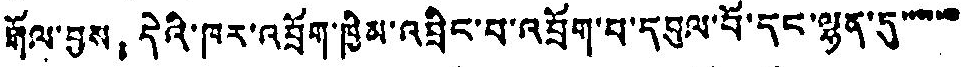རྒོལ་བྱས： དེའི་ཁར་འབྲོག་ཁྱིམ་འབྲིང་བ་འབྲོག་པ་དབུལ་བོ་དང་ལྷན་དུ་་་་་་་
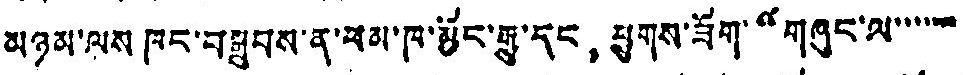མཉམ་ལས ཁང་བསྒྲུབས་ན་ཕམ་ཁ་མྱོང་རྒྱུ་དང， ཕྱུགས་ཟོག་“གཞུང་ལ་་་་་་་
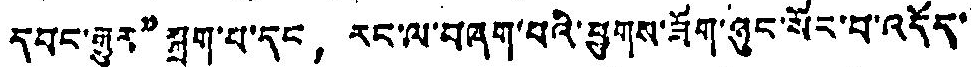དབང་རྒྱུར་”སྐྲག་པ་དང， རང་ལ་བཞག་པའི་ཕྱུགས་ཟོག་ཉུང་སོང་བ་འདོད་
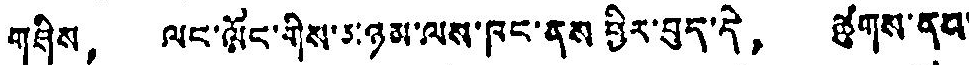གཤིས， ལང་ལོང་གིས་ཅ་ཉམ་ལས་ཁང་ནས ཕྱིར་བུད་དེ， ཚུགས་ནས་
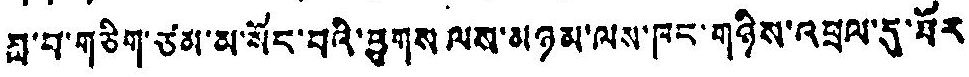ཟླ་བ་གཅིག་ཙམ་མ་སོང་བའི་ཕྱུགས ལས་མཉམ་ལས་ཁང་གཉིས་འཕྲལ་དུ་ཐོར
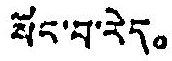སོང་བ་རེད。
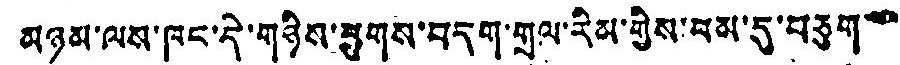མཉམ་ལས་ཁང་དེ་གཉིས་ཕྱུགས་བདག་གྲལ་རིམ་གྱིས་བམ་དུ་བཅུག་་་་
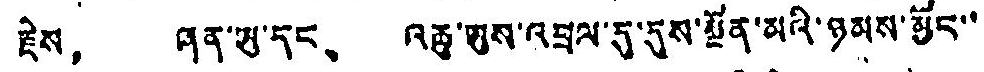རྗེས， ཞན་ཡུ་དང、 འཆུ་ཡུས་འབྲལ་དུ་དུས་སྔོན་མའི་ཉམས་མྱོང་་
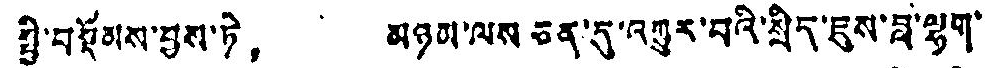སྤྱི་བསྡོམས་བྱས་ཏེ， མཉམ་ལས ཅན་དུ་འགྱུར་བའི་སྲིད་ཇུས་བླ་ལྷག་
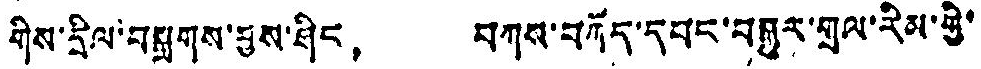གིས་དྲིལ་བསྒྲགས་བྱས་ཤིང， བཀས་བཀོད་དབང་བསྒྱུར་གྲལ་རིམ་གྱི་
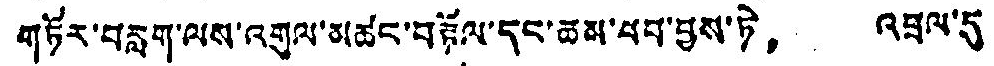གཏོར་བརླག་ལས་འགུལ་མཚང་བརྟོལ་དང་ཆམ་བབ་བྱས་ཏེ， འཕྲལ་དུ་
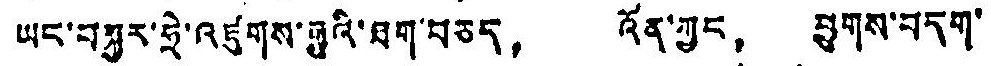ཡང་བསྐྱར་ཧྲེ་འཛུགས་རྒྱུའི་ཐག་བཅད， འོན་ཀྱང， ཕྱུགས་བདག་
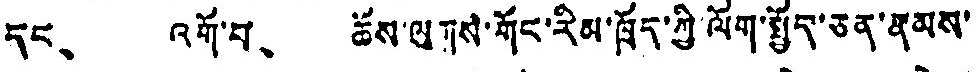དང、 འགོ་བ、 ཆོས་ལུགས་གོང་རིམ་ཁྲོད་ཀྱི་ལོག་སྤྱོད་ཅན་རྣམས་
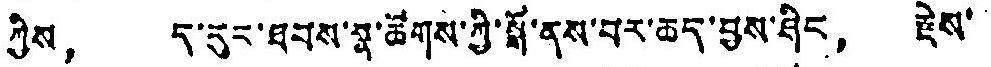ཀྱིས， ད་རུང་ཐབས་སྣ་ཚོགས་ཀྱི་སྒོ་ནས་བར་ཆད་བྱས་ཤིང， རྗེས་
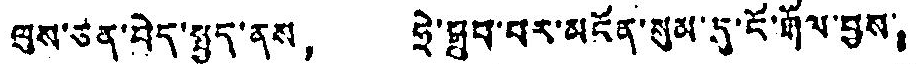ལུས་ཙན་བེད་སྤྱད་ནས， ཧྲེ་སྒྲུབ་པར་མངོན་སུམ་དུ་ངོ་རྒོལ་བྱས：
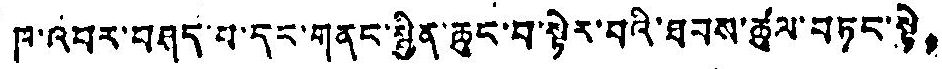ཁ་འབར་བཤད་པ་དང་གནང་སྤྱིན་ཆུང་བ་སྟེར་བའི་ཐབས་ཚུལ་བཏང་སྟེ，
